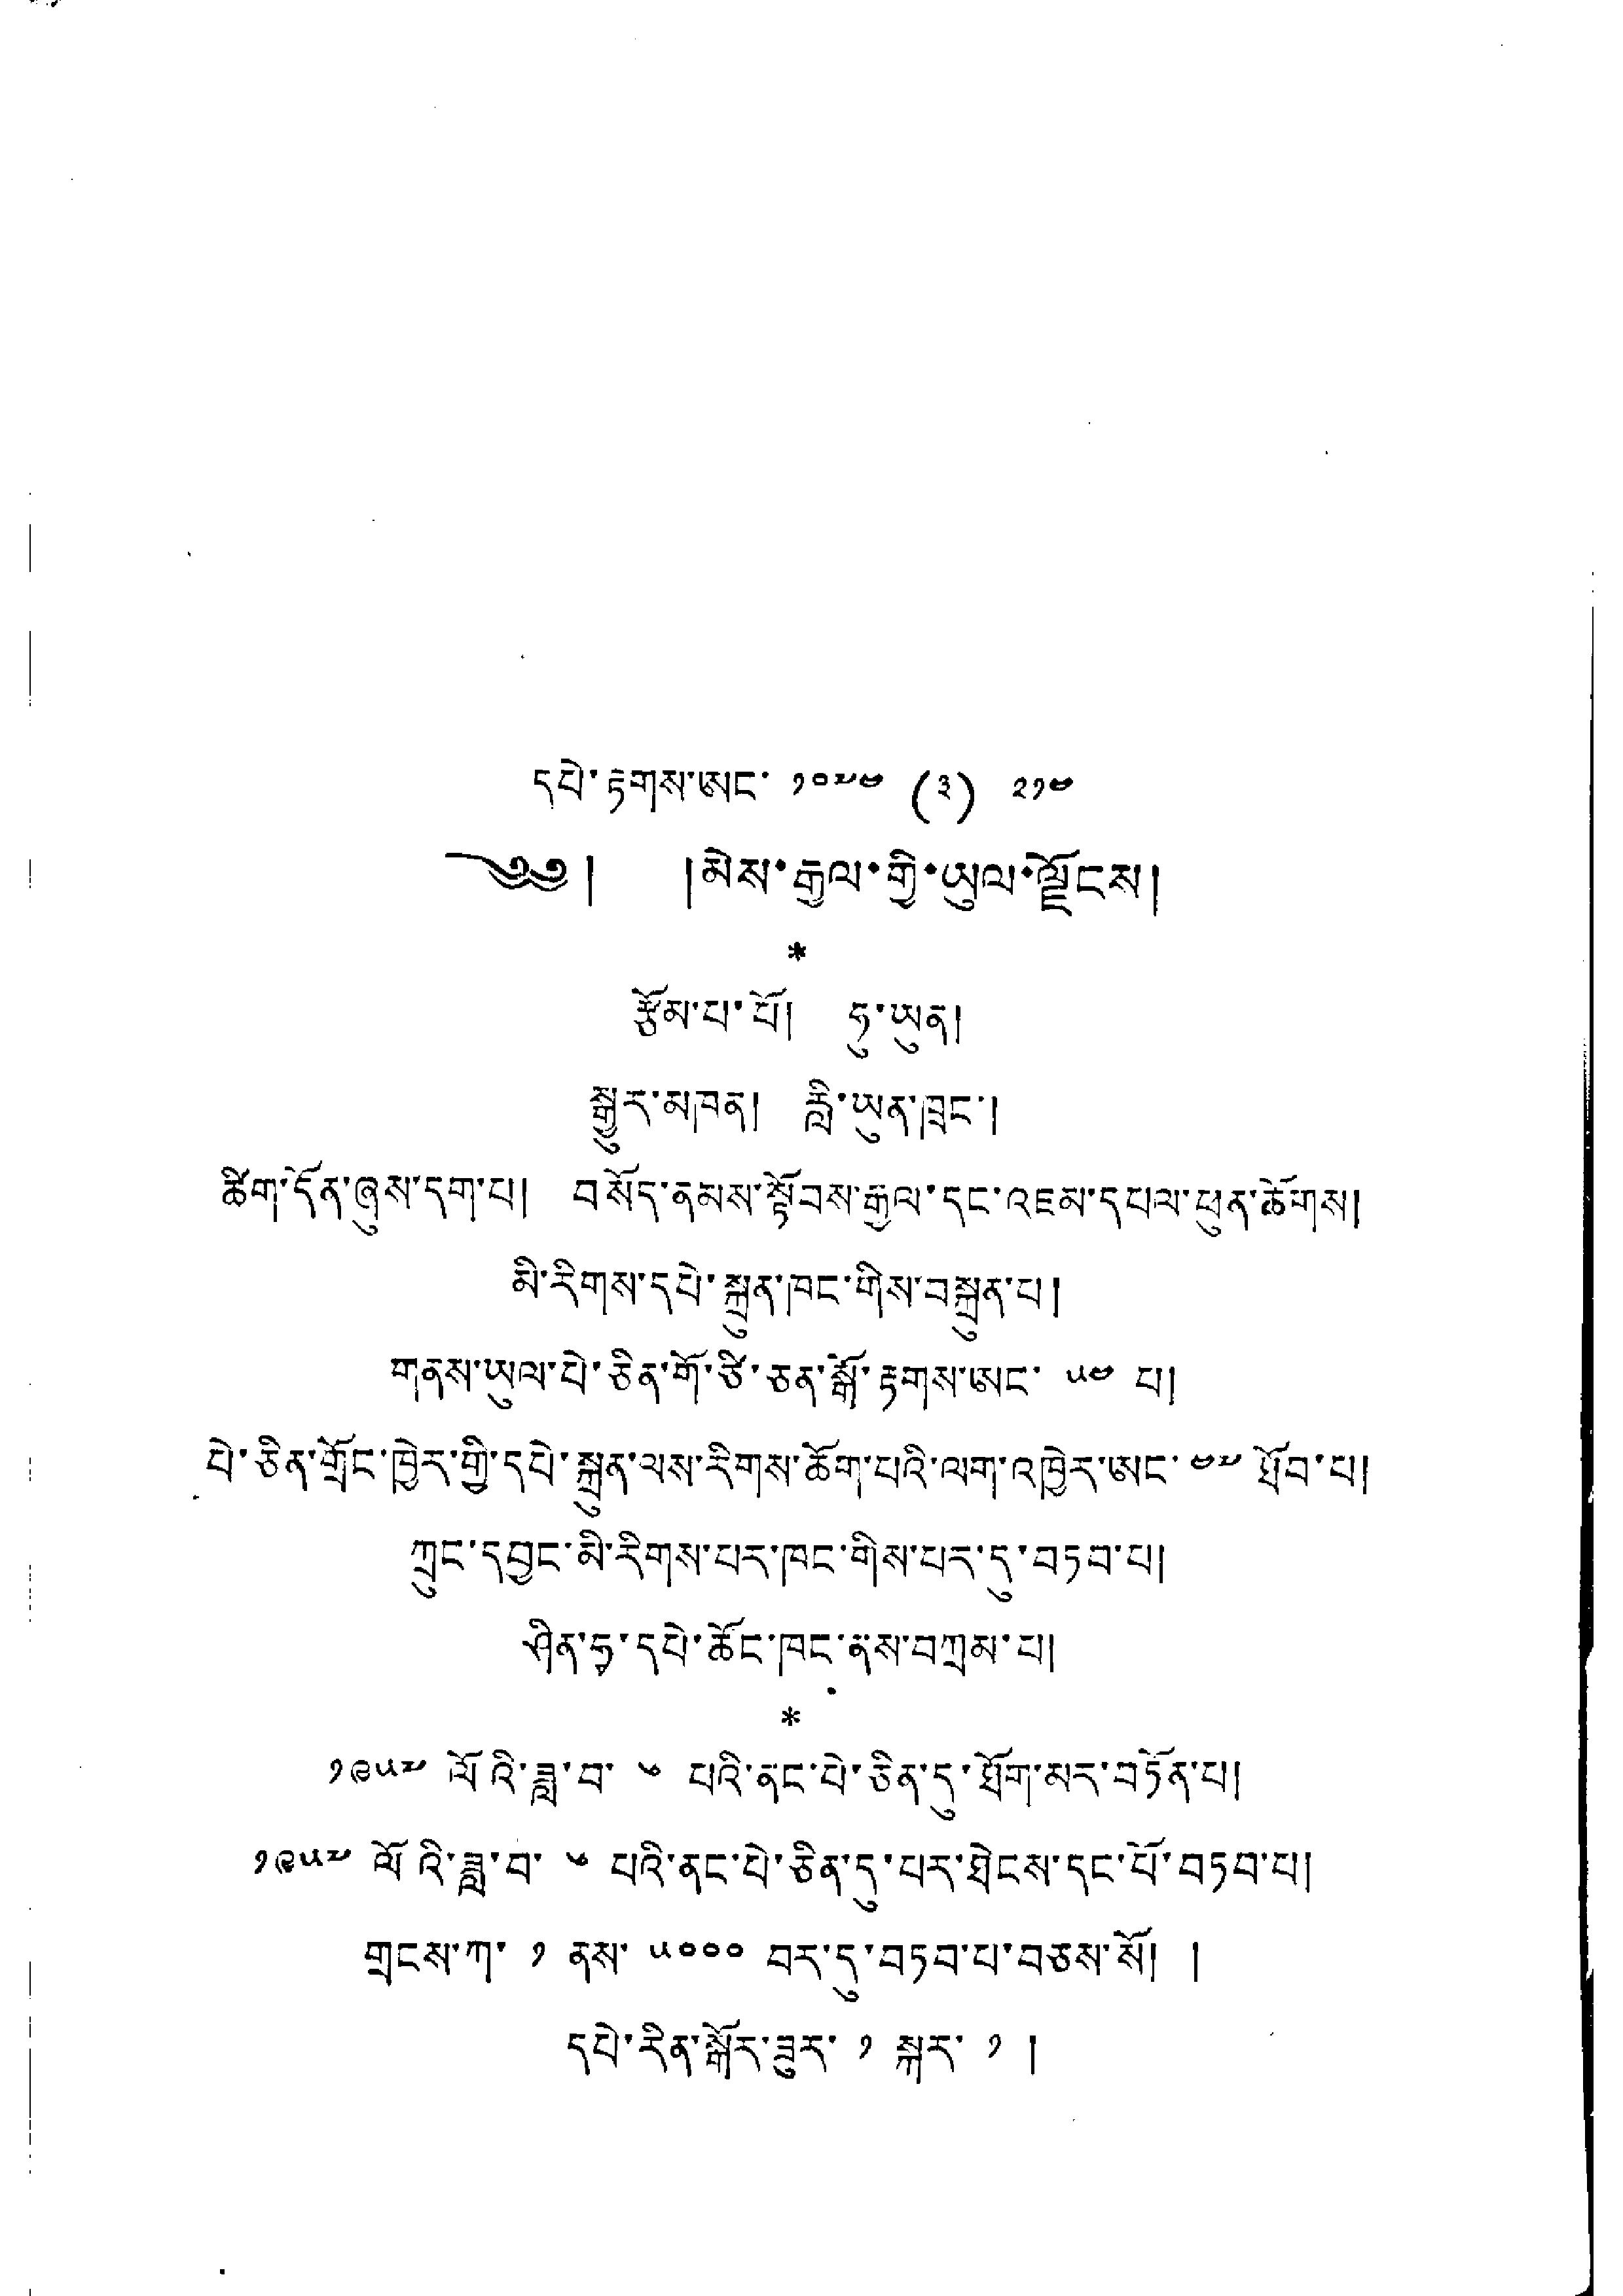དཔེ་རྟགས་ཨང་ ༡༠༧༤ (༣) ༢༡༤
༄༅། །མེས་རྒྱལ་གྱི་ཡུལ་ལྗོངས།
རྩོམ་པ་པོ། ཧུ་ཡུན།
སྒྱུར་མཁན། རླི་ཡུན་ཁྲང་།
ཚིག་དོན་ཞུས་དག་པ། བསོད་ནམས་སྟོབས་རྒྱལ་དང་འཇམ་དཔལ་ཕུན་ཆོགས།
མི་རིགས་དཔེ་སྐྲུན་ཁང་གིས་བསྐྲུན་པ།
གནས་ཡུལ་པེ་ཅིན་གོ་ཙི་ཅན་སྒོ་རྟགས་ཨང་ ༥༤ པ།
པེ་ཅིན་གྲོང་ཁྱེར་གྱི་དཔེ་སྐྲུན་ལས་རིགས་ཆོག་པའི་ལག་འཁྱེར་ཨང་༤༧་ཐོབ་པ།
ཀྲུང་དབྱང་མི་རིགས་པར་ཁང་གིས་པར་དུ་བཏབ་པ།
ཤིན་ཧྭ་དཔེ་ཚོང་ཁང་ནས་བཀྲམ་པ།
༡༩༥༧ ལོའི་ཟླ་བ་ ༦ པའི་ནང་པེ་ཅིན་དུ་ཐོག་མར་བཏོན་པ།
༡༩༥༧ ལོའི་ཟླ་བ་ ༦ པའི་ནང་པེ་ཅིན་དུ་པར་ཐེངས་དང་པོ་བཏབ་པ།
གྲངས་ཀ་ ༡ ནས་ ༥༠༠༠ བར་དུ་བཏབ་པ་བཅས་སོ། །
དཔེ་རིན་སྒོར་ཟུར་ ༡ སྐར་ ༡ །
